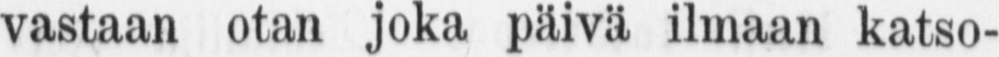vastaan otan joka päivä ilmaan katso-
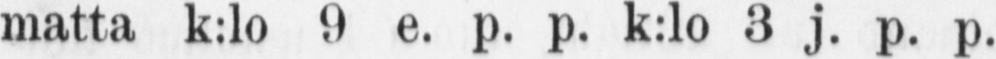matta k:lo 9 e. p. p. k:1o 3 j. p. p.
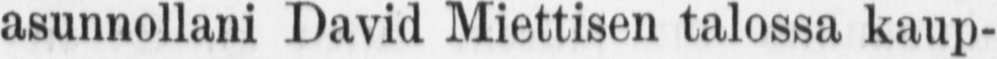asunnollani David Miettisen talossa kaup-
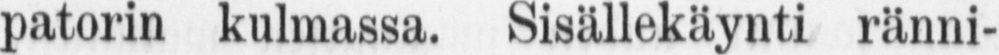patorin kulmassa. ränni-
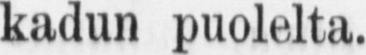kadun puolelta.
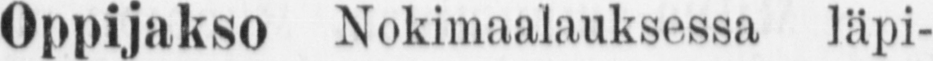Oppijakso Nokimaalauksessa läpi-
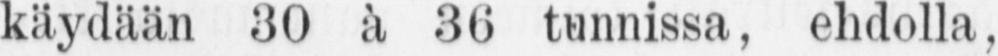käydään 30 ä 36 tunnissa, ehdolla,
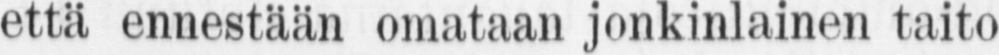että ennestään omataan jonkinlainen taito
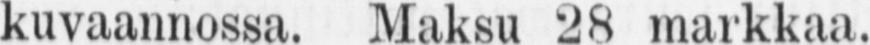kuvaannossa. 28 markkaa.
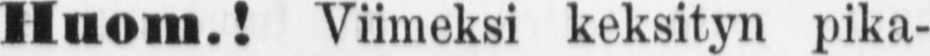Huom.! Viimeksi keksityn pika-
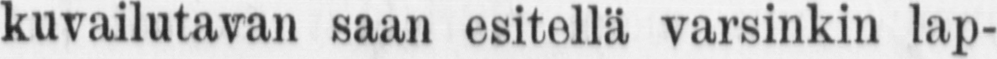kuvailutavan saan esitellä varsinkin lap-
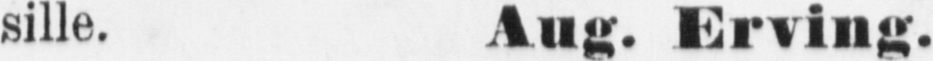sille. Aug. Erving.
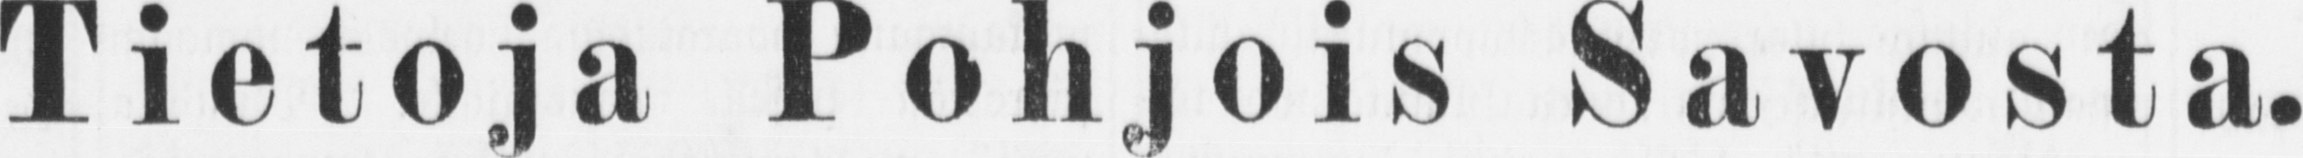Tietoja Pohjois Savosta.
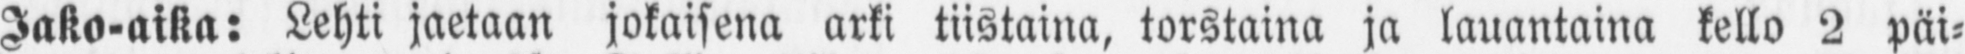Jako-aika: Lehti jaetaan jokaisena arki tiistaina, torstaina ja lauantaina kello 2 päi-
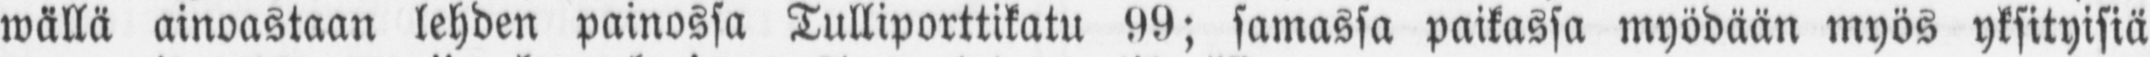wällä ainoastaan lehden painossa Tulliporttikatu 99; samassa paikassa myödään myös yksityisiä
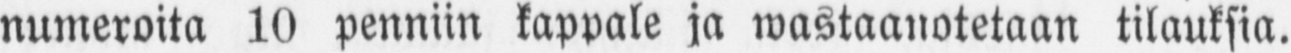numeroita 10 penniin kappale ja wastaanotetaan tilauksia.
